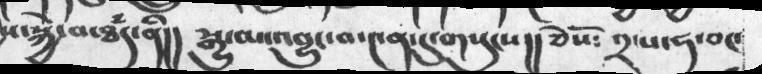ས་སྐྱེ་བ་ཐྃད་ནི།།   སྒྱུ་མ་འབྱུང་བ་༤ན་དུ་གསུངས།།  ཅེསོ༴  ༢་པ་ཧ་ཅང་
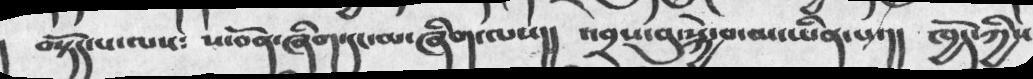བསྟོད་པ་ལས༴    ས་བོན་ཞིག་དང་མ་ཞིག་ལས།།  འབྲས་བུ་སྐྱེ་བ་མ་ཡིན་པ་།།  ཁྱོད་ཀྱིས
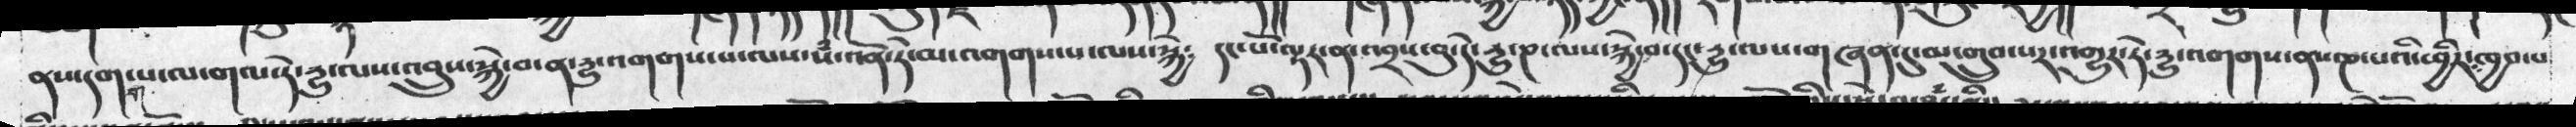ནས་དགག་པ་ལ་གལ་ཏེ་དྱུ་ལས་འབྲུས་སྐྱེ་བ་ན་དྱུ་འགགས་པ་ལས་སཾ་འོན་ཏེ་མ་འགགས་པ་ལས་སྐྱེ༴  དང་པོ་ལྟར་ན་འབྲས་བུ་དེ་དྱུ་ཎ་ལས་སྐྱེ་བ་དང་དྱུ་ལས་གཞན་དུ་མ་གྲུབ་པར་འགྱུར་ཏེ་དྱུ་འགགས་ནས་ཎ་པའི་ཕྱིར་ཁྱབ་པ
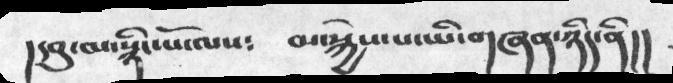།དབུ་མ་སྙིང་པོ་ལས༴  མ་སྐྱེས་པ་ཡི་གཞན་ཉིད་ནི།།
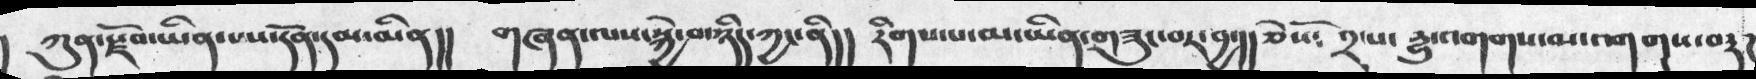།   ཀུན་སྫོབ་ཡིན་པས་དོན་དམ་ཡིན།།   གཞན་ལས་སྐྱེ་བ་ཉིད་ཀྱང་ནི།།   རིགས་པ་མ་ཡིན་གཟུང་བར་བྱ་།།   ཅེསོ༴   ༢་པ དྱུ་འགགས་མ་འགགས་བརྟཌ
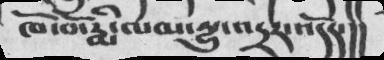ཁོ་བོ་རྨི་ལམ་དྱུ་འདྲར་འདོད་།།
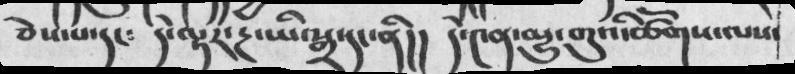ཅེས་པ་དང༴   དེ་ལྟར་རྔ་ཡི་སྒྲ་དང་ནི།།   དེ་༤ན་མྱུ་གུའི་ཚོགས་ལས་
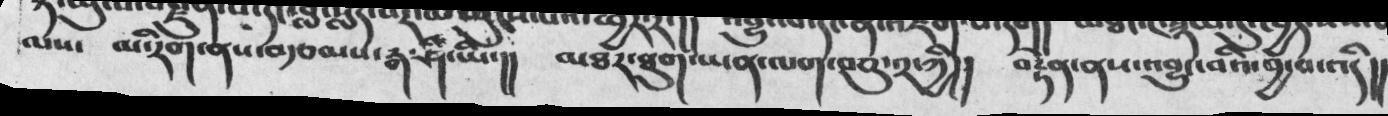ལས་  མ་རིག་ནས་བརྩམས་རྒ་ཤི་ཡི་།།  མཐར་ཐུག་ཡན་ལག་བཅུ་༢་ཀྱི།།  བརྟེན་ནས་འབྱུང་བའི་བྱ་བ་འདི།།
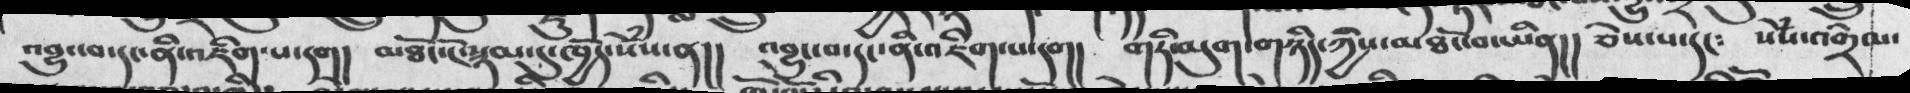འབྱུང་བ་དང་ནི་འཇིག་པ་དག།   མཐོང་ངོ་སྙམ་དུ་ཁྱོད་སེཾས་ན།།   འབྱུང་བ་དང་ནི་འཇིག་པ་དག།།   གཏི་མུག་གཉིད་ཀྱིས་མཐོང་བ་ཡིན།།  ཅེས་པ་དང༴    སེཾས་འགྲེལ་
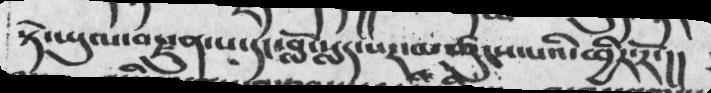སྟེ་ཡུལ་བརྗུན་པ་དང་བློ་སླད་པར་མཚུངས་པའི་ཕྱིར་རོ་།།
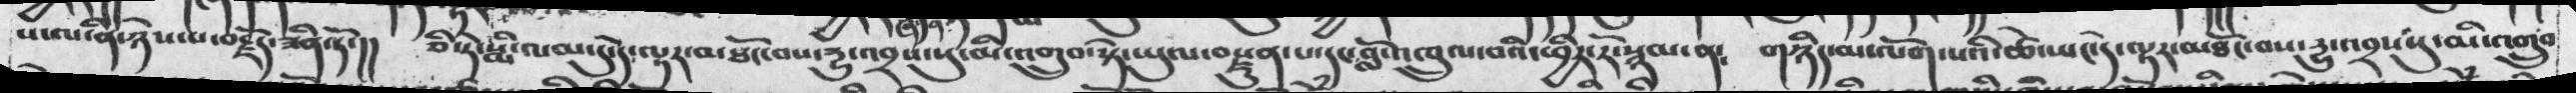ས་ལ་ནི་ཉེས་པ་བརྗོད་ཟིན་ཏོ་།།  ཅི་ཏེ་རྨི་ལམ་དུ་དེ་ལྟར་མཐོང་བས་དྱུ་འབྲས་པུ་མི་འགྲུབ་སྟེ་ཡུལ་བརྫུན་པ་དང་བློ་འཁྲུལ་བའི་ཕྱིར་རོ་སྙམ་ན༴   གཉིད་མ་ལོག་པའི་ཚེ་ཡང་དེ་ལྟར་མཐོང་བས་དྱུ་འབྲས་སུ་མི་འགྲུབ
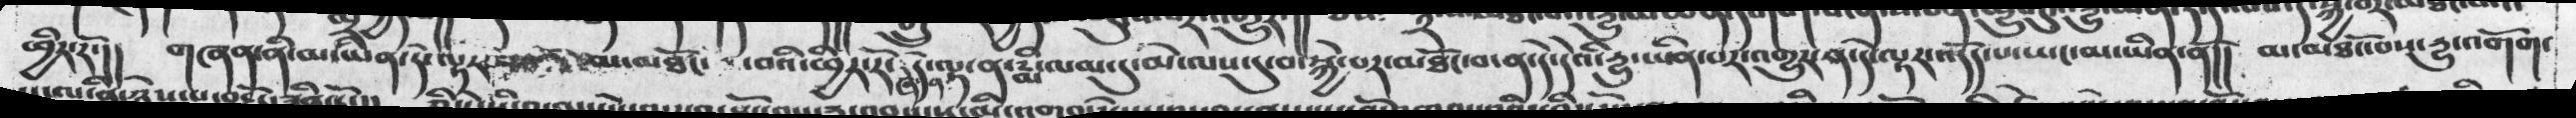ཕྱིར་རོ་།།  གཞན་ནི་མ་ཡིན་དེ་ལྟར་   མ་མཐོང་བའི་ཕྱིར་རོ་ཞེ་ན་དེ་ལྟ་ན་རྨི་ལམ་དུ་མེ་ལས་དུ་བ་སྐྱེ་བར་མཐོང་བ་ན་དེ་དེའི་དྱུ་ཡིན་པར་འགྱུར་ན་དེ་ལྟར་འདོད་པ་ཡང་མ་ཡིན་ནོ།།   མ་མཐོང་བས་དྱུ་འགོག་
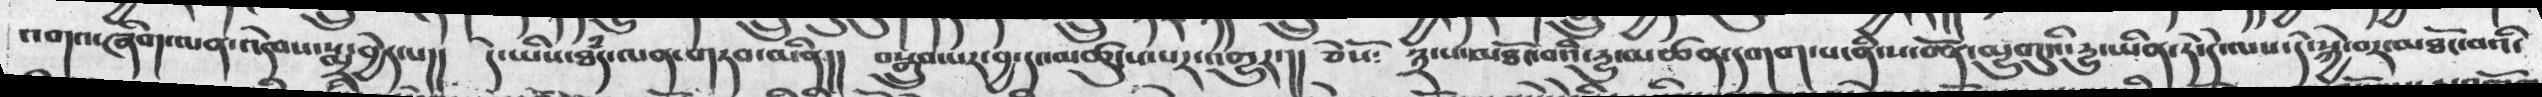འགའ་ཞིག་ལན་འདེབས་སྨྲ་བྱེད་པ།།  དེ་ཡིས་ཐཾད་ལན་གཏབ་མིན།།   བསྒྲུབ་པར་བྱ་དང་མཚུངས་པར་འགྱུར་།།  ཅེསོ༴  ༣་པ་མཐོང་བའི་་དྱུ་མཚན་དགག་པ་ནི་ས་བོན་མྱུ་གུའི་དྱུ་ཡིན་ཏེ་དེ་ལས་དེ་སྐྱེ་བར་མཐོང་བའི་
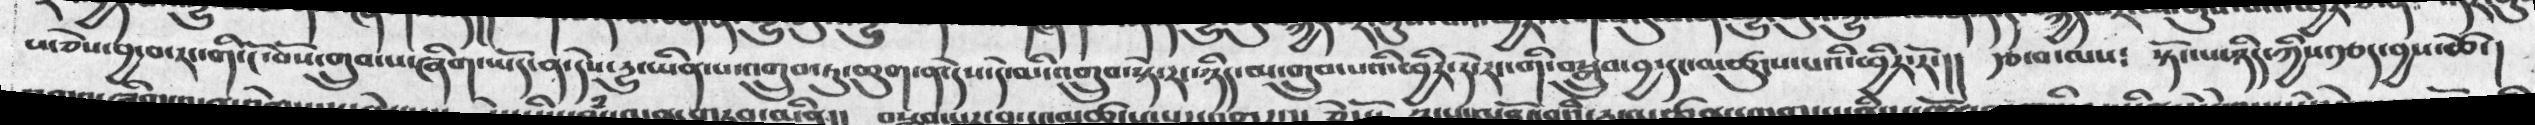ས་ཅེས་བྱ་བ་རང་གི་ངོ་བོས་གྲུབ་པ་ཞིག་ཡོད་ན་དེས་དྱུ་ཡིནཔ་འགྲུབ་ཏུ་ཆུག་ན་དེས་དེ་མི་འགྲུབ་སྟེ་རང་ཉིད་མ་གྲུབ་པའི་ཕྱིར་རོ་རང་གི་བསྒྲུབ་བྱ་དང་མཚུངས་པའི་ཕྱིར་རོ་།།  རྩ་བ་ལས༴ སྟོང་པ་ཉིད་ཀྱིས་རྩད་བྱས་ཆོ་།
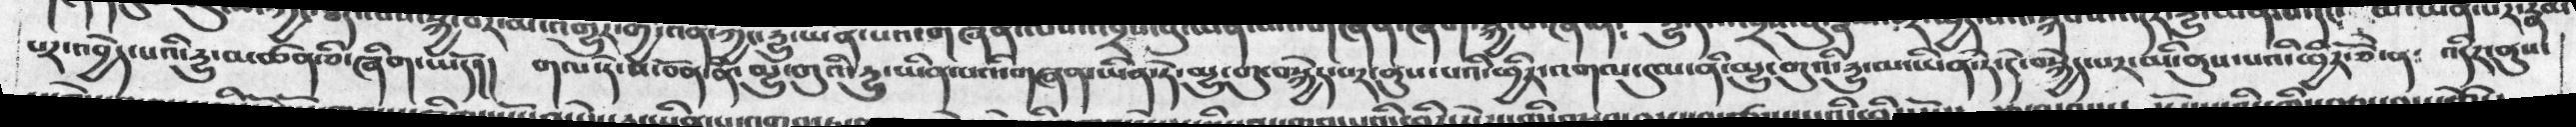པར་འབྱེད་པའི་དྱུ་མཚན་ཅི་ཞིག་ཡོད།།  གལ་ཏེ་ས་བོན་མྱུ་གུའི་དྱུ་ཡིན་པའི་གཞན་ཡིན་ཏེ་མྱུ་གུ་བསྐྱེད་པར་ནུས་པའི་ཕྱིར་འགལ་དུམ་ནི་མྱུ་གུའི་དྱུ་མ་ཡིན་ཏེ་དེ་བསྐྱེད་པར་མི་ནུས་པའི་ཕྱིར་ཅེ་ན༴  འདིར་ནུས་
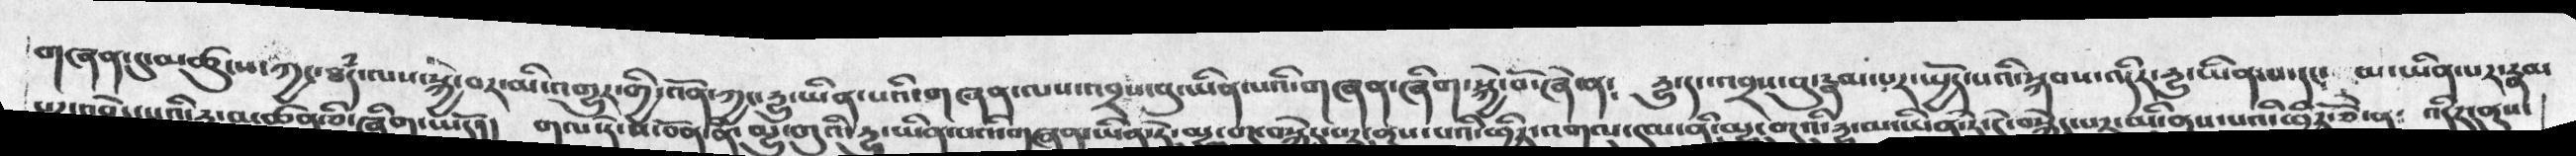གཞན་དུ་མཚུངས་ཀྱང་ཐཾད་ལས་སྐྱེ་བར་མི་འགྱུར་གྱི་འོན་ཀྱང་དྱུ་ཡིན་པའི་གཞན་ལས་འབྲས་བུ་ཡིན་པའི་གཞན་ཞིག་སྐྱེ་བོ་ཞེ་ན༴   དྱུ་དང་འབྲས་བུ་རྣམ་པར་སྤྱོད་པའི་སྐབས་འདིར་དྱུ་ཡིན་པ་དང༴  མ་ཡིན་པར་རྣམ
